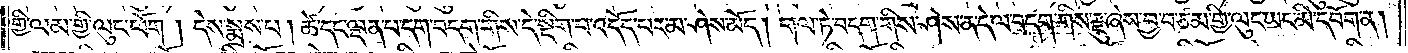གྱི་ལམ་གྱི་ལུང་ཕོག །དེས་སྨྲས་པ། ཚེ་དང་ལྡན་པ་དག་བདག་གིས་དེ་སྡིག་པ་འདོད་པར་མ་ཤེས་མོད། གལ་ཏེ་བདག་གིས་ཤེས་ན་དེ་ལ་བདག་གིས་རྫུ་ཞེས་བྱ་བ་ཙམ་གྱི་ལུང་ཡང་མི་དབོག་ན།
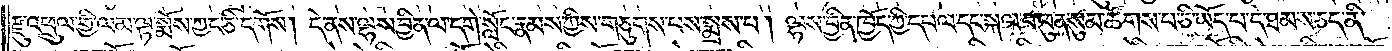རྫུ་འཕྲུལ་གྱི་ལམ་ལྟ་སྨོས་ཀྱང་ཅི་དགོས། དེ་ནས་ལྷས་བྱིན་ལ་དགེ་སློང་རྣམས་ཀྱིས་གཅུགས་པས་སྨྲས་པ། ལྷས་བྱིན་ཁྱོད་ཀྱི་དཔལ་དང་སྐལ་པ་ཕུན་སུམ་ཚོགས་པ་ཅི་ཡོད་པ་དེ་ཐམས་ཅད་ནི་
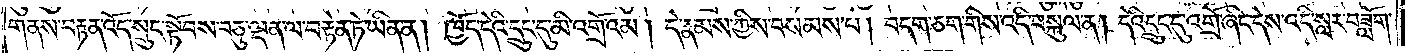གནས་བརྟན་འོད་སྲུང་སྟོབས་བཅུ་ལྡན་ལ་བརྟེན་ཏེ་ཡིན་ན། ཁྱོད་དེའི་དྲུང་དུ་མི་འགྲོའམ། དེ་རྣམས་ཀྱིས་བསམས་པ། བདག་ཅག་གིས་འདི་བསྐུལ་ན། དེའི་དྲུང་དུ་འགྲོ་ཞིང་དེས་འདི་སླར་བཟློག་
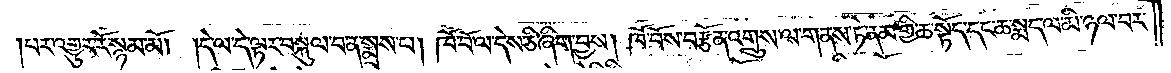པར་འགྱུར་རོ་སྙམ་མོ། །དེ་ལ་དེ་ལྟར་བསྐུལ་བ་ན་སྨྲས་པ། ཁོ་བོ་ལ་དེས་ཅི་ཞིག་བྱས། ཁོ་བོས་བརྩོན་འགྲུས་ལ་གནས་ཏེ་ནམ་གྱི་ཆ་སྟོད་དང་ཆ་སྨད་ལ་མི་ཉལ་བར་
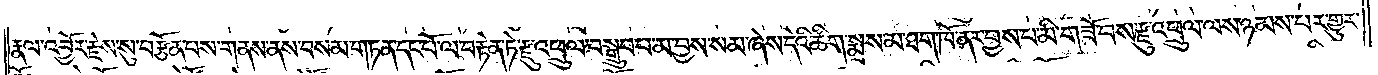རྣལ་འབྱོར་རྗེས་སུ་བརྩོན་པས་གནས་ནས་བསམ་གཏན་དང་པོ་ལ་བརྟེན་ཏེ་རྫུ་འཕྲུལ་བསྒྲུབ་པ་མ་བྱས་སམ་ཞེས་དེའི་ཚིག་སྨྲས་མ་ཐག་ཁོ་ནར་བྱས་པ་མི་གཟོ་བས་རྫུ་འཕྲུལ་ལས་ཉམས་པར་གྱུར་
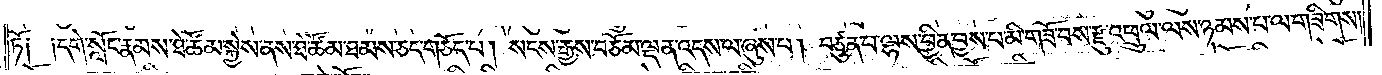ཏོ༑ ༑དགེ་སློང་རྣམས་ཐེ་ཚོམ་སྐྱེས་ནས་ཐེ་ཚོམ་ཐམས་ཅད་གཅོད་པ། སངས་རྒྱས་བཅོམ་ལྡན་འདས་ལ་ཞུས་པ། བཙུན་པ་ལྷས་བྱིན་བྱས་པ་མི་གཟོ་བས་རྫུ་འཕྲུལ་ལས་ཉམས་པ་ལ་གཟིགས།
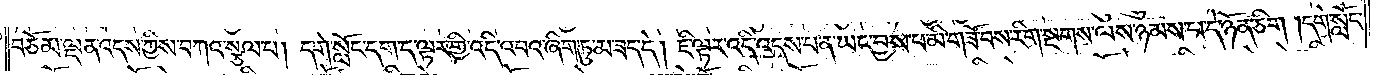བཅོམ་ལྡན་འདས་ཀྱིས་བཀའ་སྩལ་པ། དགེ་སློང་དག་ད་ལྟར་གྱི་འདི་འབའ་ཞིག་ཏུ་མ་ཟད་དེ། ཇི་ལྟར་འདི་འདས་པ་ན་ཡང་བྱས་པ་མི་གཟོ་བས་རིག་སྔགས་ལས་ཉམས་པ་དེ་ཉོན་ཅིག །དགེ་སློང་
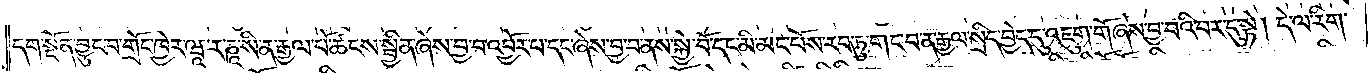དག་སྔོན་བྱུང་བ་གྲོང་ཁྱེར་ཝཱ་ར་ཎཱ་སི་ན་རྒྱལ་པོ་ཚངས་སྦྱིན་ཞེས་བྱ་བ་འབྱོར་བ་དང་ཞེས་བྱ་བ་ནས་སྐྱེ་བོ་དང་མི་མང་པོས་རབ་ཏུ་གང་བ་ན་རྒྱལ་སྲིད་བྱེད་དུ་འཇུག་གོ་ཞེས་བྱ་བའི་བར་དུ་སྟེ། དེ་ལ་རིག་
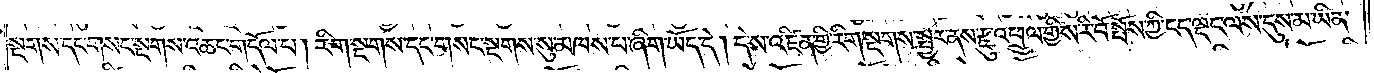སྔགས་དང་གསང་སྔགས་འཆང་གདོལ་པ། རིག་སྔགས་དང་གསང་སྔགས་སུ་མཁས་པ་ཞིག་ཡོད་དེ། དེ་ས་འཛིན་གྱི་རིག་སྔགས་སྦྱར་ནས་རྫུ་འཕྲུལ་གྱིས་རི་བོ་སྤོས་ཀྱི་ངད་ལྡང་ལས་དུས་མ་ཡིན་
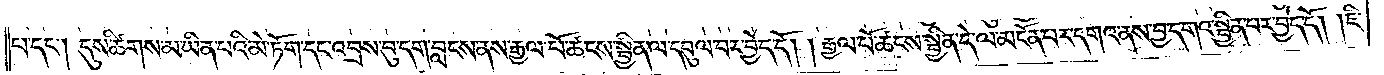པ་དང༌། དུས་ཚིགས་མ་ཡིན་པའི་མེ་ཏོག་དང་འབྲས་བུ་དག་བླངས་ནས་རྒྱལ་པོ་ཚངས་སྦྱིན་ལ་དབུལ་བར་བྱེད་དོ། །རྒྱལ་པོ་ཚངས་སྦྱིན་དེ་ལ་མངོན་པར་དགའ་ནས་བྱ་དགའ་སྦྱིན་པར་བྱེད་དོ། །ཇི་
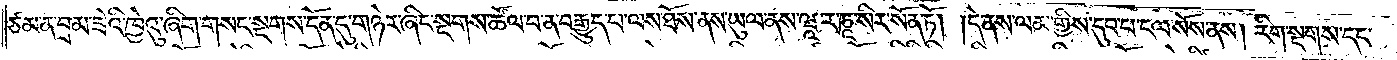ཙམ་ན་བྲམ་ཟེའི་ཁྱེའུ་ཞིག་གསང་སྔགས་དོན་དུ་གཉེར་ཞིང་གསང་སྔགས་ཚོལ་བ་ན་བརྒྱུད་པ་ལས་ཐོས་ནས་ཡུལ་ནས་ཝཱ་ར་ཎཱ་སིར་སོན་ཏོ། །དེ་ནས་ལམ་གྱིས་དུབ་པ་ངལ་སོས་ནས། རིག་སྔགས་དང་
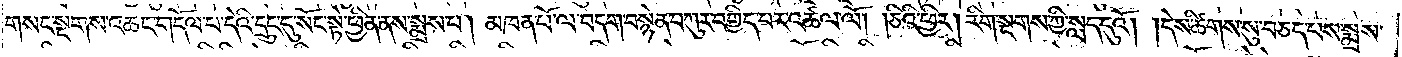གསང་སྔགས་འཆང་གདོལ་པ་དེའི་དྲུང་དུ་སོང་སྟེ་ཕྱིན་ནས་སྨྲས་པ། མཁན་པོ་ལ་བདག་བསྙེན་བཀུར་བགྱིད་པར་འཚལ་ལོ། །ཅིའི་ཕྱིར། རིག་སྔགས་ཀྱི་སླད་དུའོ། །དེས་ཚིགས་སུ་བཅད་པས་སྨྲས་
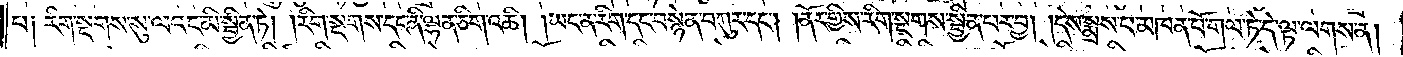པ། རིག་སྔགས་སུ་ལའང་མི་སྦྱིན་ཏེ། །རིག་སྔགས་དང་ནི་ལྷན་ཅིག་འཆི། །ཡང་ན་རིག་དང་བསྙེན་བཀུར་དང༌། །ནོར་གྱིས་རིག་སྔགས་སྦྱིན་པར་བྱ། །དེས་སྨྲས་པ་མཁན་པོ་གལ་ཏེ་དེ་ལྟ་ལགས་ན།
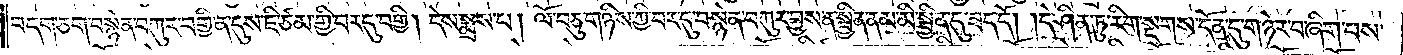བདག་ཅག་བསྙེན་བཀུར་བགྱི་ན་དུས་ཇི་ཙམ་གྱི་བར་དུ་བགྱི། དེས་སྨྲས་པ། ལོ་བཅུ་གཉིས་ཀྱི་བར་དུ་བསྙེན་བཀུར་བྱས་ན་སྦྱིན་ནམ་མི་སྦྱིན་དུ་ཟད་དོ། །དེ་ཤིན་ཏུ་རིག་སྔགས་དོན་དུ་གཉེར་བ་ཞིག་པས་
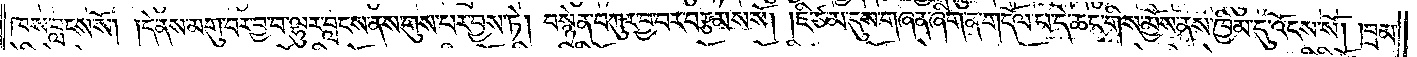ཁས་བླངས་སོ། །དེ་ནས་མགུ་བར་བྱ་བ་ལྷུར་བླངས་ནས་གུས་པར་བྱས་ཏེ། བསྙེན་བཀུར་བྱ་བར་བརྩམས་སོ། །ཇི་ཙམ་དུས་གཞན་ཞིག་ན་གདོལ་པ་དེ་ཆང་གིས་མྱོས་ནས་ཁྱིམ་དུ་འོངས་སོ། །བྲམ་
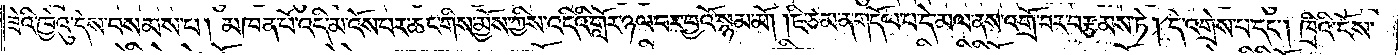ཟེའི་ཁྱེའུ་དེས་བསམས་པ། མཁན་པོ་འདི་མ་འོས་པར་ཆང་གིས་མྱོས་ཀྱིས་འདིའི་གློར་ཉལ་བར་བྱའོ་སྙམ་མོ། །ཇི་ཙམ་ན་གདོལ་པ་དེ་མལ་ནས་འགྲོ་བར་བརྩམས་ཏེ། དེ་འགྲེས་པ་དང༌། ཁྲིའི་ངོས་
